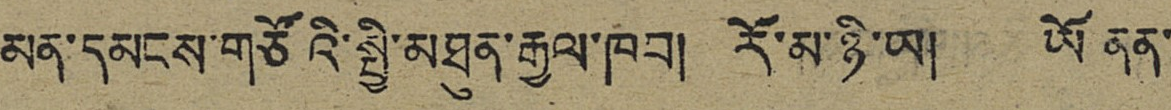མན་དམངས་གཙོའི་སྤྱི་མཐུན་རྒྱལ་ཁབ། རོ་མ་ཉི་ཡ། ཡོ ནན་
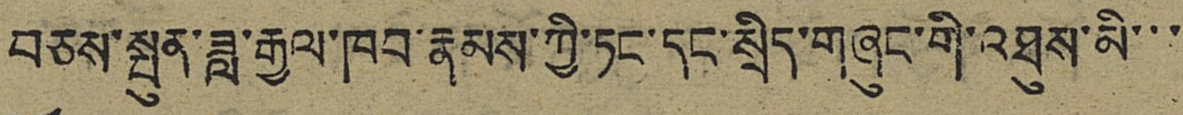བཅས་སྤུན་ཟླ་རྒྱལ་ཁབ་རྣམས་ཀྱི་ཏང་དང་སྲིད་གཞུང་གི་འཐུས་མི་་་
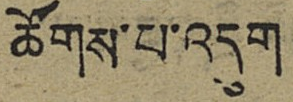ཚོགས་པ་འདུག
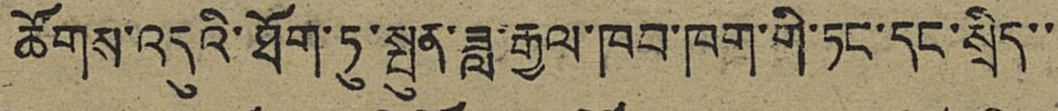ཚོགས་འདུའི་ཐོག་ཏུ་སྤུན་ཟླ་རྒྱལ་ཁབ་ཁག་གི་ཏང་དང་སྲིད་་
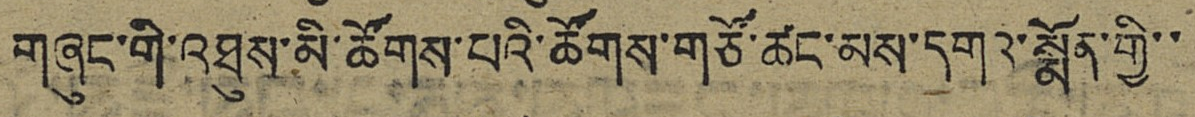གཞུང་གི་འཐུས་མི་ཚོགས་པའི་ཚོགས་གཙོ་ཚང་མས་དགའ་སྨོན་གྱི་་
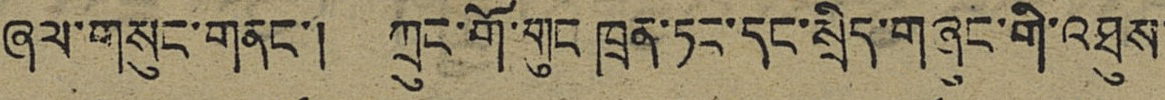ཞལ་གསུང་གནང་། ཀྲུང་གོ་གུང ཁྲན་ཏང་དང་སྲིད་གཞུང་གི་འཐུས་
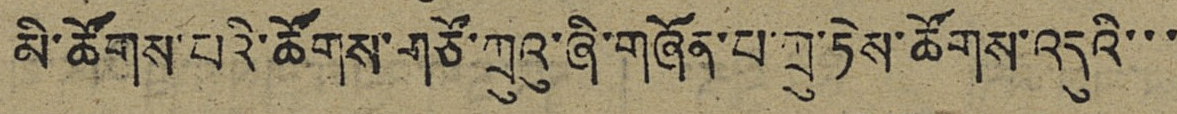མི་ཚོགས་པའི་ཚོགས་གཙོ་ཀྲུའུ་ཞི་གཞོན་པ་ཀྲུ་ཏེས་ཚོགས་འདུའི་་་
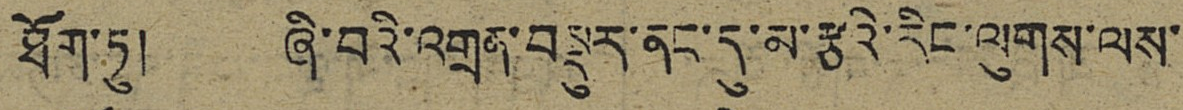ཐོག་ཏུ། ཞི་བའི་འགྲན་བསྡུར་ནང་དུ་མ་རྩའི་རིང་ལུགས་ལས་
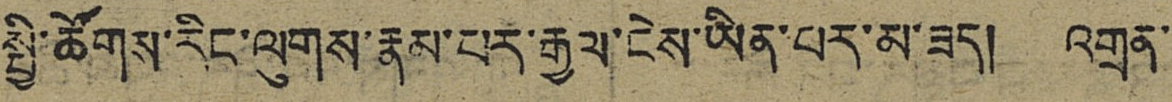སྤྱི་ཚོགས་རིང་ལུགས་རྣམ་པར་རྒྱལ་ངེས་ཡིན་པར་མ་ཟད། འགྲན་
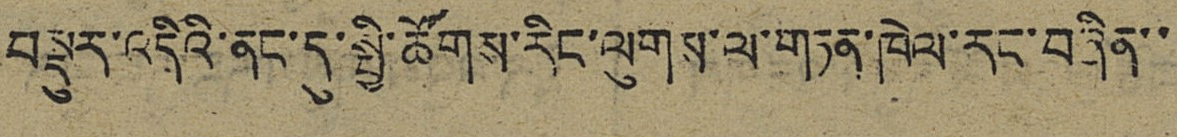བསྡུར་འདིའི་ནང་དུ་སྤྱི་ཚོགས་རིང་ལུགས་ལ་གཏན་ཁེལ་རང་བཞིན་་
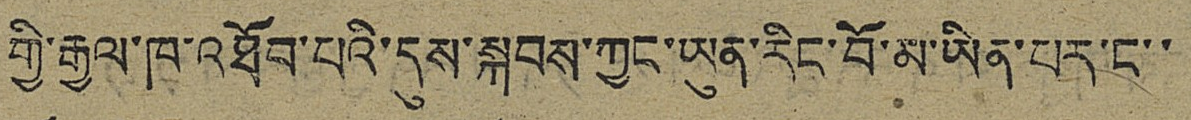གྱི་རྒྱལ་ཁ་འཐོབ་པའི་དུས་སྐབས་ཀྱང་ཡུན་རིང་བོ་མ་ཡིན་པར་ང་་
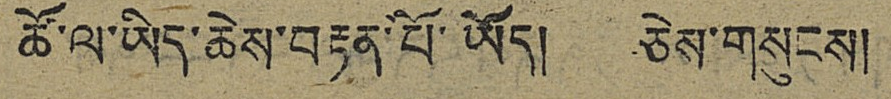ཚོ་ལ་ཡིད་ཆེས་བརྟན་པོ་ཡོད། ཅེས་གསུངས།
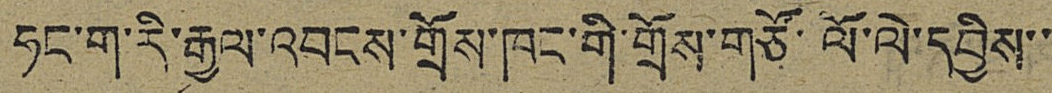ཧང་ག་རི་རྒྱལ་འབངས་གྲོས་ཁང་གི་གྲོས་གཙོ་ལོ་ལེ་དབྱིས་་
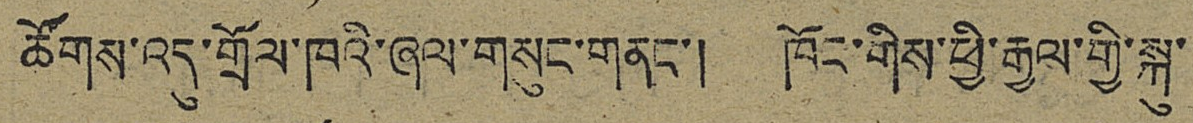ཚོགས་འདུ་གྲོལ་ཁའི་ཞལ་གསུང་གནང་། ཁོང་གིས་ཕྱི་རྒྱལ་གྱི་སྐུ་
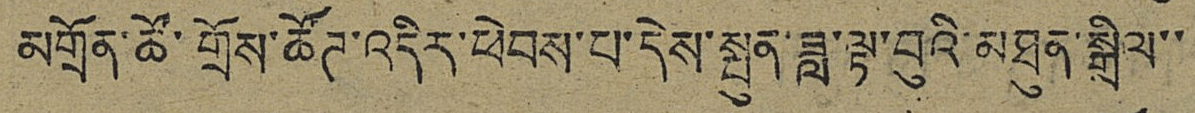མགྲོན་ཚོ་གྲོས་ཚོཊ་འདིར་ཕེབས་པ་དེས་སྤུན་ཟླ་ལྟ་བུའི་མཐུན་སྒྲིལ་་
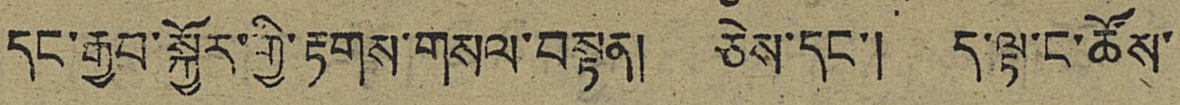དང་རྒྱལ་སྐྱོར་གྱི་རྟགས་གསལ་བསྟན། ཅེས་དང་། ད་ལྟ་ང་ཚོས་
